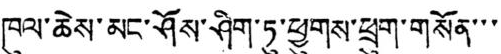ཁུལ་ཆེས་མང་ཤོས་ཤིག་ཏུ་ཕྱུགས་ཕྲུག་གསོན་་་
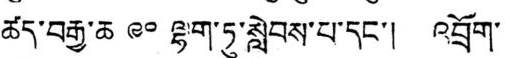ཚད་བརྒྱ་ཆ ༩༠ ལྷག་ཏུ་སླེབས་པ་དང་། འབྲོག་
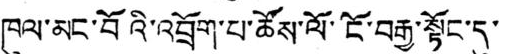ཁུལ་མང་བོའི་འབྲོག་པ་ཚོས་ལོ་ངོ་བརྒྱ་སྟོང་དུ་
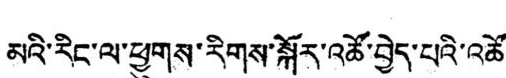མའི་རིང་ལ་ཕྱུགས་རིགས་སྐོར་འཚོ་བྱེད་པའི་འཚོ
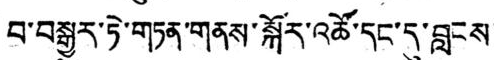བ་བསྒྱུར་ཏེ་གཏན་གནས་སྐོར་འཚོ་དང་དུ་བླངས་
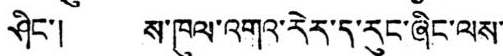ཤིང་། ས་ཁུལ་འགའ་རེར་ད་རུང་ཞིང་ལས་
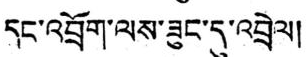དང་འབྲོག་ལས་ཟུང་དུ་འབྲེལ།
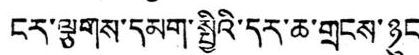ངར་ལྕགས་དམག་སྤྱིའི་དར་ཆ་གྲངས་ཉུང་
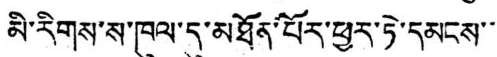མི་རིགས་ས་ཁུལ་དུ་མཐོན་པོར་ཕྱར་ཏེ་དམངས་་་
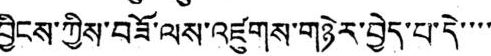བྱིངས་ཀྱིས་བཟོ་ལས་འཛུགས་གཉེར་བྱེད་པ་དེ་་་་
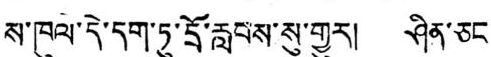ས་ཁུལ་དེ་དག་ཏུ་དྲོ་རླབས་སུ་གྱུར། ཤིན་ཅང་
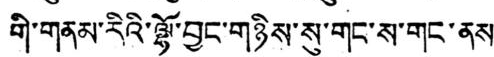གི་གནམ་རིའི་ལྷོ་བྱང་གཉིས་སུ་གང་ས་གང་ནས་
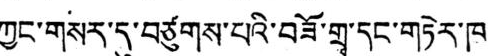ཀྱང་གསར་དུ་བཙུགས་པའི་བཟོ་གྲྭ་དང་གཏེར་ཁ་
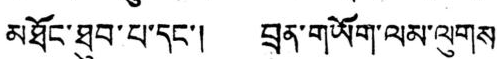མཐོང་ཐུབ་པ་དང་། བྲན་གཡོག་ལམ་ལུགས་
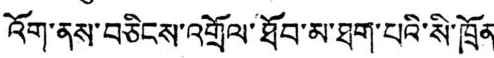འོག་ནས་བཅིངས་འགྲོལ་ཐོབ་མ་ཐག་པའི་སི་ཁྲོན་
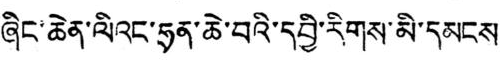ཞིང་ཆེན་ལིའང་ཧྲན་ཆེ་བའི་དབྱི་རིགས་མི་དམངས
